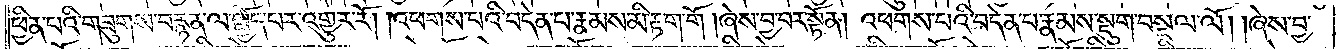ཕྱིན་པའི་གཟུགས་བརྙན་ལ་སྤྱོད་པར་འགྱུར་རོ། །འཕགས་པའི་བདེན་པ་རྣམས་མི་རྟག་གོ །ཞེས་བྱ་བར་སྟོན། འཕགས་པའི་བདེན་པ་རྣམས་སྡུག་བསྔལ་ལོ། །ཞེས་བྱ་
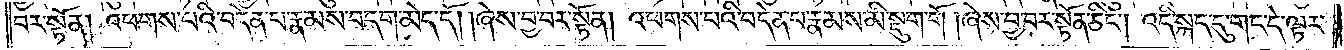བར་སྟོན། འཕགས་པའི་བདེན་པ་རྣམས་བདག་མེད་དོ། །ཞེས་བྱ་བར་སྟོན། འཕགས་པའི་བདེན་པ་རྣམས་མི་སྡུག་གོ །ཞེས་བྱ་བར་སྟོན་ཅིང༌། འདི་སྐད་དུ་གང་དེ་ལྟར་
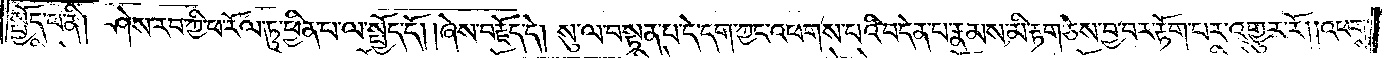སྤྱོད་པ་ནི། ཤེས་རབ་ཀྱི་ཕ་རོལ་ཏུ་ཕྱིན་པ་ལ་སྤྱོད་དོ། །ཞེས་བརྗོད་དེ། སུ་ལ་བསྟན་པ་དེ་དག་ཀྱང་འཕགས་པའི་བདེན་པ་རྣམས་མི་རྟག་ཅེས་བྱ་བར་རྟོག་པར་འགྱུར་རོ། །འཕགས་
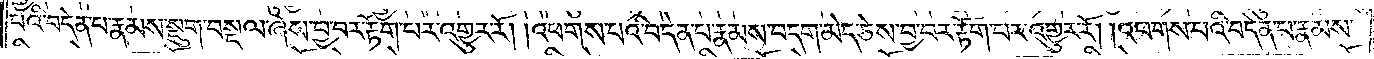པའི་བདེན་པ་རྣམས་སྡུག་བསྔལ་ཞེས་བྱ་བར་རྟོག་པར་འགྱུར་རོ། །འཕགས་པའི་བདེན་པ་རྣམས་བདག་མེད་ཅེས་བྱ་བར་རྟོག་པར་འགྱུར་རོ། །འཕགས་པའི་བདེན་པ་རྣམས་
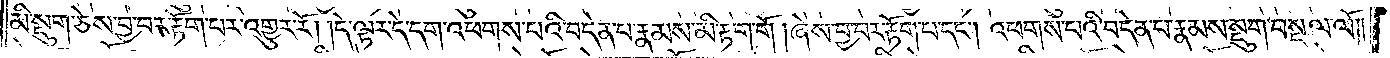མི་སྡུག་ཅེས་བྱ་བར་རྟོག་པར་འགྱུར་རོ། །དེ་ལྟར་དེ་དག་འཕགས་པའི་བདེན་པ་རྣམས་མི་རྟག་གོ །ཞེས་བྱ་བར་རྟོག་པ་དང༌། འཕགས་པའི་བདེན་པ་རྣམས་སྡུག་བསྔལ་ལོ༎
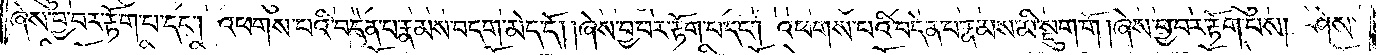ཞེས་བྱ་བར་རྟོག་པ་དང༌། འཕགས་པའི་བདེན་པ་རྣམས་བདག་མེད་དོ། །ཞེས་བྱ་བར་རྟོག་པ་དང༌། འཕགས་པའི་བདེན་པ་རྣམས་མི་སྡུག་གོ །ཞེས་བྱ་བར་རྟོག་པས། ཤེས་
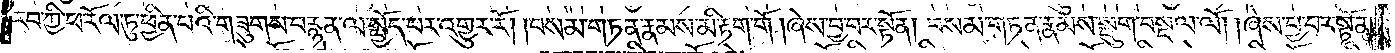རབ་ཀྱི་ཕ་རོལ་ཏུ་ཕྱིན་པའི་གཟུགས་བརྙན་ལ་སྤྱོད་པར་འགྱུར་རོ། །བསམ་གཏན་རྣམས་མི་རྟག་གོ །ཞེས་བྱ་བར་སྟོན། བསམ་གཏན་རྣམས་སྡུག་བསྔལ་ལོ། །ཞེས་བྱ་བར་སྟོན།
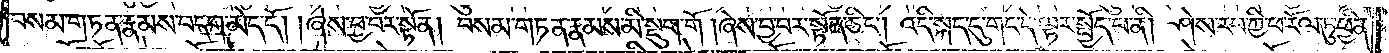བསམ་གཏན་རྣམས་བདག་མེད་དོ། །ཞེས་བྱ་བར་སྟོན། བསམ་གཏན་རྣམས་མི་སྡུག་གོ །ཞེས་བྱ་བར་སྟོན་ཅིང༌། འདི་སྐད་དུ་གང་དེ་ལྟར་སྤྱོད་པ་ནི། ཤེས་རབ་ཀྱི་ཕ་རོལ་ཏུ་ཕྱིན་
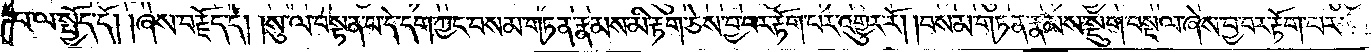པ་ལ་སྤྱོད་དོ། །ཞེས་བརྗོད་དེ། སུ་ལ་བསྟན་པ་དེ་དག་ཀྱང་བསམ་གཏན་རྣམས་མི་རྟག་ཅེས་བྱ་བར་རྟོག་པར་འགྱུར་རོ། །བསམ་གཏན་རྣམས་སྡུག་བསྔལ་ཞེས་བྱ་བར་རྟོག་པར་
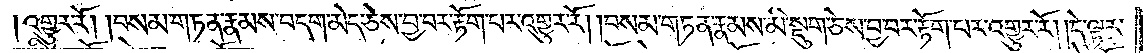འགྱུར་རོ། །བསམ་གཏན་རྣམས་བདག་མེད་ཅེས་བྱ་བར་རྟོག་པར་འགྱུར་རོ། །བསམ་གཏན་རྣམས་མི་སྡུག་ཅེས་བྱ་བར་རྟོག་པར་འགྱུར་རོ། །དེ་ལྟར་
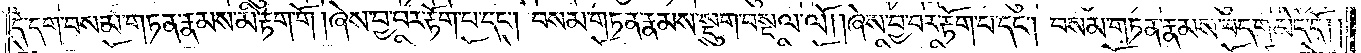དེ་དག་བསམ་གཏན་རྣམས་མི་རྟག་གོ །ཞེས་བྱ་བར་རྟོག་པ་དང༌། བསམ་གཏན་རྣམས་སྡུག་བསྔལ་ལོ། །ཞེས་བྱ་བར་རྟོག་པ་དང༌། བསམ་གཏན་རྣམས་བདག་མེད་དོ༎
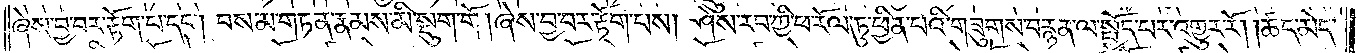ཞེས་བྱ་བར་རྟོག་པ་དང༌། བསམ་གཏན་རྣམས་མི་སྡུག་གོ །ཞེས་བྱ་བར་རྟོག་པས། ཤེས་རབ་ཀྱི་ཕ་རོལ་ཏུ་ཕྱིན་པའི་གཟུགས་བརྙན་ལ་སྤྱོད་པར་འགྱུར་རོ། །ཚད་མེད་
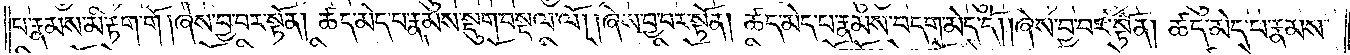པ་རྣམས་མི་རྟག་གོ །ཞེས་བྱ་བར་སྟོན། ཚད་མེད་པ་རྣམས་སྡུག་བསྔལ་ལོ། །ཞེས་བྱ་བར་སྟོན། ཚད་མེད་པ་རྣམས་བདག་མེད་དོ། །ཞེས་བྱ་བར་སྟོན། ཚད་མེད་པ་རྣམས་
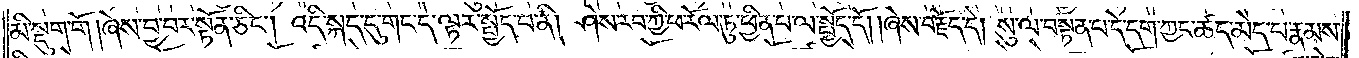མི་སྡུག་གོ །ཞེས་བྱ་བར་སྟོན་ཅིང༌། འདི་སྐད་དུ་གང་དེ་ལྟར་སྤྱོད་པ་ནི། ཤེས་རབ་ཀྱི་ཕ་རོལ་ཏུ་ཕྱིན་པ་ལ་སྤྱོད་དོ། །ཞེས་བརྗོད་དེ། སུ་ལ་བསྟན་པ་དེ་དག་ཀྱང་ཚད་མེད་པ་རྣམས་
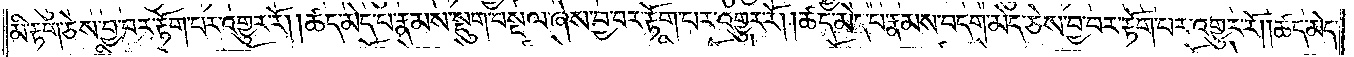མི་རྟག་ཅེས་བྱ་བར་རྟོག་པར་འགྱུར་རོ། །ཚད་མེད་པ་རྣམས་སྡུག་བསྔལ་ཞེས་བྱ་བར་རྟོག་པར་འགྱུར་རོ། །ཚད་མེད་པ་རྣམས་བདག་མེད་ཅེས་བྱ་བར་རྟོག་པར་འགྱུར་རོ། །ཚད་མེད་
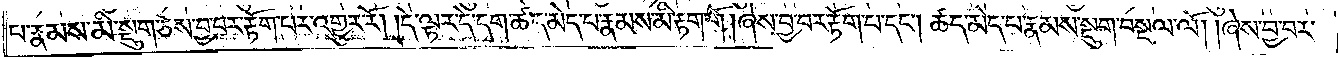པ་རྣམས་མི་སྡུག་ཅེས་བྱ་བར་རྟོག་པར་འགྱུར་རོ། །དེ་ལྟར་དེ་དག་ཚད་མེད་པ་རྣམས་མི་རྟག་གོ །ཞེས་བྱ་བར་རྟོག་པ་དང༌། ཚད་མེད་པ་རྣམས་སྡུག་བསྔལ་ལོ། །ཞེས་བྱ་བར་
